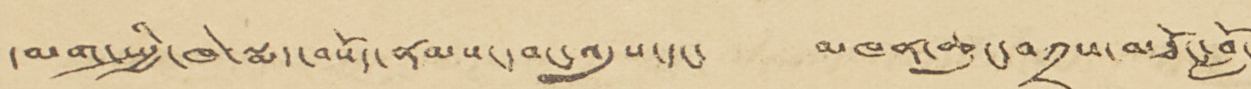དམག་སྤྱི་ཁེ་སྨད་བསོད་ནམས་དབང་འདུས་དང་ མཁན་ཆུང་བཀྲས་མཐོང་བློ་
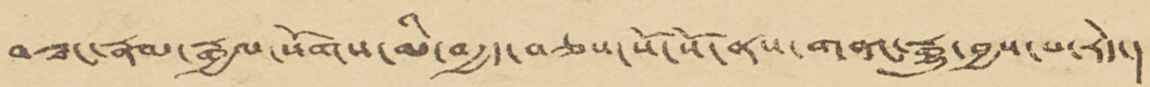བཟང་རྣམ་རྒྱལ་སོགས་མི་བརྒྱད་བཅས་སོ་སོ་ནས་གནང་རྒྱུ་བྱས་པ་རེད་།
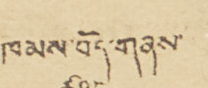ཁམས་བོད་གནས་
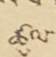ཚུལ་
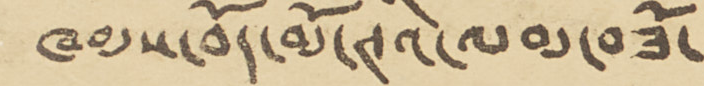ཁམས་བོད་མོ་ཊའི་ལམ་བཟོ་
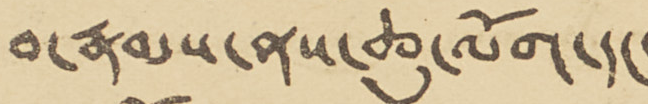བ་རྣམས་ནས་ཆུ་ལོག་དང་
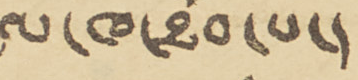འཐབ་འཛིངས་བྱས་ཏེ་རྒྱལ་ཁ་ཐོབ་པ་།
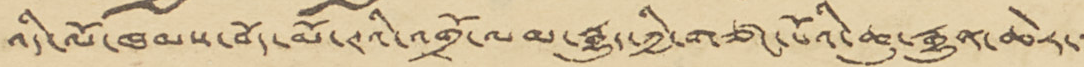འདི་ལོ་ཁམས་བོད་མོ་ཊའི་འགྲོ་ལམ་རྒྱུད་ཀྱི་གཙང་པོའི་ཆུ་རྒྱུན་ཆེར་་་
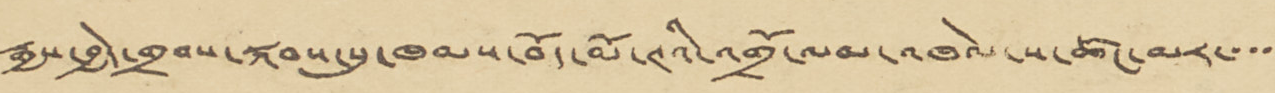རྒྱས་བྱེད་གྲབས་སྐབས་སུ་ཁམས་བོད་མོ་ཊའི་འགྲོ་ལམ་འཁེལ་ས་ཚང་མར་་་་
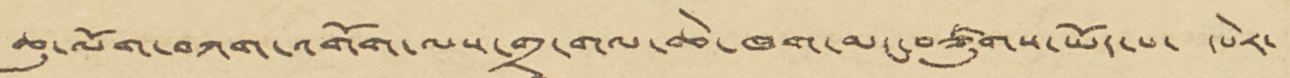ཆུ་ལོག་བཀག་འགོག་ལས་གྲྭ་གལ་ཆེ་ཁག་མང་བཙུགས་ཡོད་པ་ དཔེར་
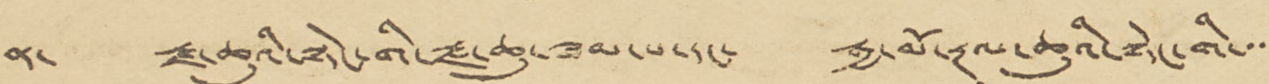ན་ རྫ་ཆུའི་སྟེང་གི་རྫ་ཆུ་ཟམ་པ་དང་ རྒྱ་མོ་རྔུལ་ཆུའི་སྟེང་གི་་་
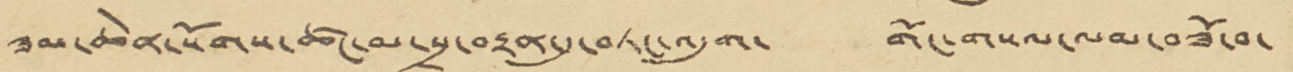ཟམ་ཆེན་སོགས་ཚང་མ་སྲ་བརྟན་དུ་བཏང་འདུག་ གོང་གསལ་ལམ་བཟོ་བ་
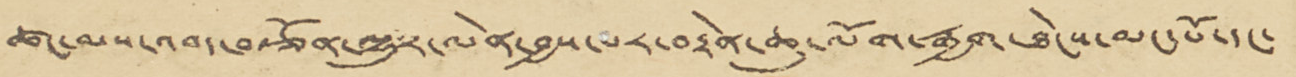ཚང་མས་འབད་བརྩོན་ལྷུར་ལེན་བྱས་པར་བརྟེན་ཆུ་ལོག་རྒྱག་ཐེངས་མང་པོ་དང་
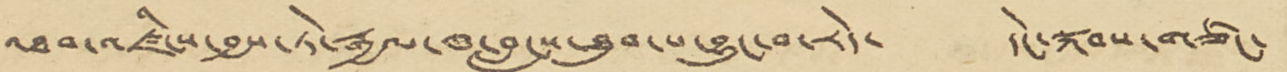འཐབ་འཛིངས་བྱས་ཏེ་རྒྱལ་ཁ་བླངས་ཐུབ་པ་བྱུང་བ་རེད་ དེང་སྐབས་གཙང་
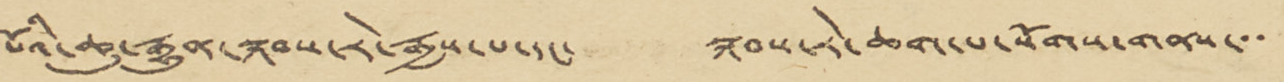པོའི་ཆུ་རྒྱུན་སྐབས་རེ་རྒྱས་པ་དང་ སྐབས་རེ་ཆག་པ་སོགས་གནས་་་
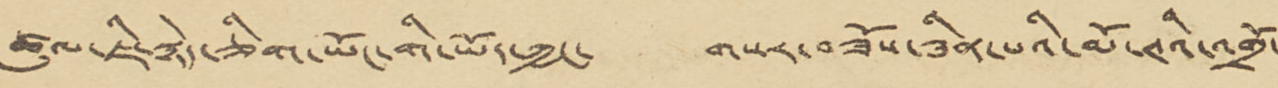ཚུལ་ཇི་སྙེད་ཅིག་ཡོང་གི་ཡོད་ཀྱང་ གསར་བཟོས་ཟིན་པའི་མོ་ཊའི་འགྲོ་
